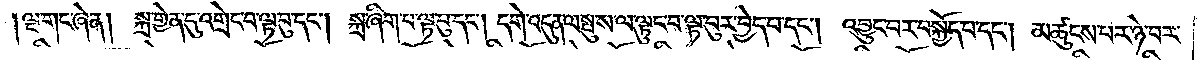ལྔ་གང་ཞེ་ན། སྐྲ་གྱེན་དུ་འགྲེང་བ་ལྟ་བུ་དང༌། སྐྲ་ཞིག་པ་ལྟ་བུ་དང༌། དགེ་འདུན་ལ་སྤུ་ས་ལ་ལྟུང་བ་ལྟ་བུར་བྱེད་པ་དང༌། འབྱུང་བར་བསྐྱོད་པ་དང༌། མཚུངས་པར་ཉེ་བར་
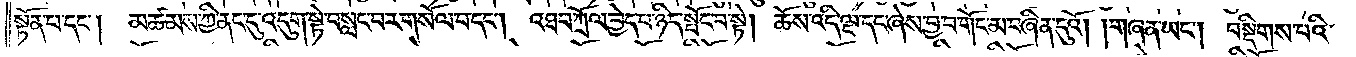སྟོན་པ་དང༌། མཚམས་ཀྱི་ནང་དུ་འདུག་སྟེ་བསླང་བར་གསོལ་བ་དང༌། འཐབ་ཀྲོལ་བྱེད་པ་ཉིད་སྤོང་བ་སྟེ། ཆོས་འདི་ལྔ་དང་ཞེས་བྱ་བ་གོང་མ་བཞིན་དུའོ། །གཞན་ཡང༌། བསྡིགས་པའི་
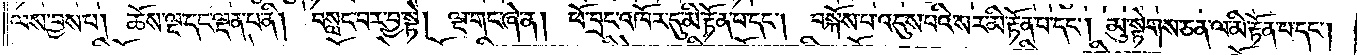ལས་བྱས་པ། ཆོས་ལྔ་དང་ལྡན་པ་ནི། བསླང་བར་བྱ་སྟེ། ལྔ་གང་ཞེ་ན། ཕོ་བྲང་འཁོར་དུ་མི་རྟོན་པ་དང༌། བསྐོས་པ་འདུས་པའི་སར་མི་རྟོན་པ་དང༌། མུ་སྟེགས་ཅན་ལ་མི་རྟོན་པ་དང༌།
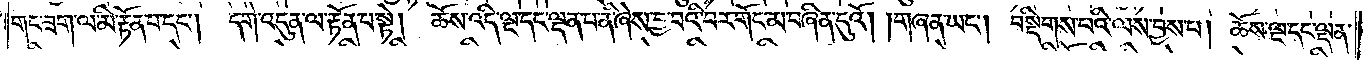གང་ཟག་ལ་མི་རྟོན་པ་དང༌། དགེ་འདུན་ལ་རྟོན་པ་སྟེ། ཆོས་འདི་ལྔ་དང་ལྡན་པ་ནི་ཞེས་བྱ་བའི་བར་གོང་མ་བཞིན་དུའོ། །གཞན་ཡང༌། བསྡིགས་པའི་ལས་བྱས་པ། ཆོས་ལྔ་དང་ལྡན་
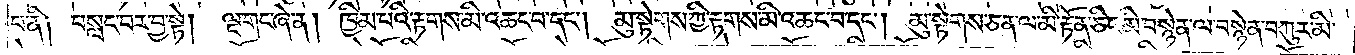པ་ནི༑ བསླང་བར་བྱ་སྟེ། ལྔ་གང་ཞེ་ན། ཁྱིམ་པའི་རྟགས་མི་འཆང་བ་དང༌། མུ་སྟེགས་ཀྱི་རྟགས་མི་འཆང་བ་དང༌། མུ་སྟེགས་ཅན་ལ་མི་རྟོན་ཅིང་མི་བསྙེན་ལ་བསྙེན་བཀུར་མི་
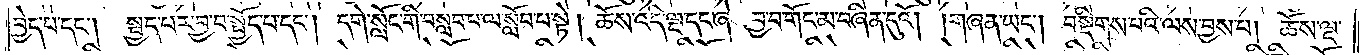བྱེད་པ་དང༌། སྤྱད་པར་བྱ་བ་སྤྱོད་པ་དང༌། དགེ་སློང་གི་བསླབ་པ་ལ་སློབ་པ་སྟེ། ཆོས་འདི་ལྔ་དང་ཞེས་བྱ་བ་གོང་མ་བཞིན་དུའོ། །གཞན་ཡང༌། བསྡིགས་པའི་ལས་བྱས་པ། ཆོས་ལྔ་
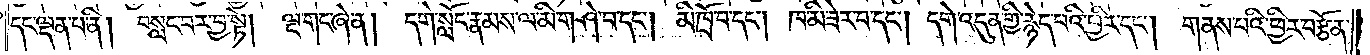དང་ལྡན་པ་ནི། བསླང་བར་བྱ་སྟེ། ལྔ་གང་ཞེ་ན། དགེ་སློང་རྣམས་ལ་མི་གཤེ་བ་དང༌། མི་ཁྲོ་བ་དང༌། ཁ་མི་ཟེར་བ་དང༌། དགེ་འདུན་གྱི་རྙེད་པའི་ཕྱིར་དང༌། གནས་པའི་ཕྱིར་བརྩོན་
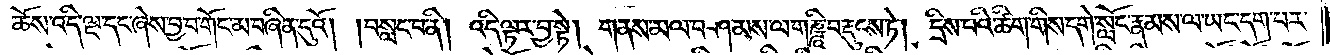ཆོས་འདི་ལྔ་དང་ཞེས་བྱ་བ་གོང་མ་བཞིན་དུའོ། །བསླང་བ་ནི། འདི་ལྟར་བྱ་སྟེ། གནས་མལ་བཤམས་ལ་གཎྜཱི་བརྡུངས་ཏེ། དྲིས་པའི་ཚིག་གིས་དགེ་སློང་རྣམས་ལ་ཡང་དག་པར་
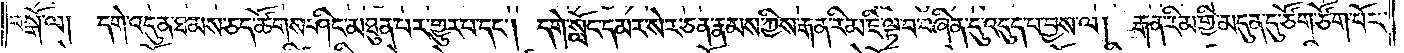བསྒོ་ལ། དགེ་འདུན་ཐམས་ཅད་ཚོགས་ཤིང་མཐུན་པར་གྱུར་པ་དང༌། དགེ་སློང་དམར་སེར་ཅན་རྣམས་ཀྱིས་རྒན་རིམ་ཇི་ལྟ་བ་བཞིན་དུ་འདུད་པ་བྱས་ལ། རྒན་རིམ་གྱི་མདུན་དུ་ཙོག་ཙོག་པོར་
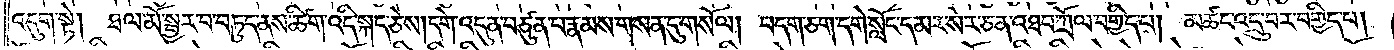འདུག་སྟེ། ཐལ་མོ་སྦྱར་བ་བཏུད་ནས་ཚིག་འདི་སྐད་ཅེས། དགེ་འདུན་བཙུན་པ་རྣམས་གསན་དུ་གསོལ། བདག་ཅག་དགེ་སློང་དམར་སེར་ཅན་འཐབ་ཀྲོལ་བགྱིད་པ། མཚང་འདྲུ་བར་བགྱིད་པ།
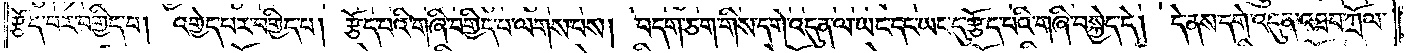རྩོད་པར་བགྱིད་པ། འགྱེད་པར་བགྱིད་པ། རྩོད་པའི་གཞི་བགྱིད་པ་ལགས་པས། བདག་ཅག་གིས་དགེ་འདུན་ལ་ཡང་དང་ཡང་དུ་རྩོད་པའི་གཞི་བསྐྱེད་དེ། དེ་ནས་དགེ་འདུན་འཐབ་ཀྲོལ་
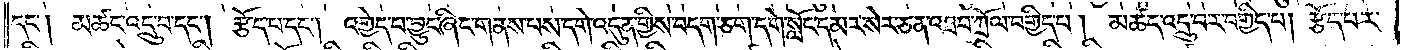དང༌། མཚང་འདྲུ་བ་དང༌། རྩོད་པ་དང༌། འགྱེད་པ་བྱུང་ཞིང་གནས་པས་དགེ་འདུན་གྱིས་བདག་ཅག་དགེ་སློང་དམར་སེར་ཅན་འཐབ་ཀྲོལ་བགྱིད་པ། མཚང་འདྲུ་བར་བགྱིད་པ། རྩོད་པར་
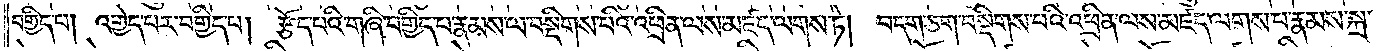བགྱིད་པ། འགྱེད་པར་བགྱིད་པ། རྩོད་པའི་གཞི་བགྱིད་པ་རྣམས་ལ་བསྡིགས་པའི་འཕྲིན་ལས་མཛད་ལགས་ཏེ། བདག་ཅག་བསྡིགས་པའི་འཕྲིན་ལས་མཛད་ལགས་པ་རྣམས་སྐྲ་
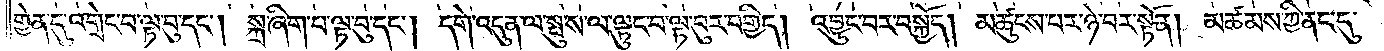གྱེན་དུ་འགྲེང་བ་ལྟ་བུ་དང༌། སྐྲ་ཞིག་པ་ལྟ་བུ་དང༌། དགེ་འདུན་ལ་སྤུ་ས་ལྟུང་བ་ལྟ་བུར་བགྱིད། འབྱུང་བར་བསྐྱོད། མཚུངས་པར་ཉེ་བར་སྟོན། མཚམས་ཀྱི་ནང་དུ་
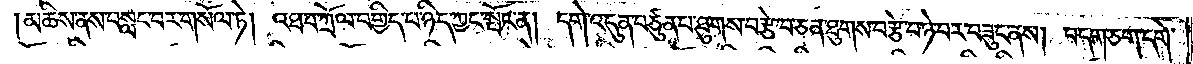མཆིས་ནས་བསླང་བར་གསོལ་ཏེ། འཐབ་ཀྲོལ་བགྱིད་པ་ཉིད་ཀྱང་སྤོང་ན། དགེ་འདུན་བཙུན་པ་ཐུགས་བརྩེ་བ་ཅན་ཐུགས་བརྩེ་བ་ཉེ་བར་བཟུང་ནས། བདག་ཅག་དགེ་
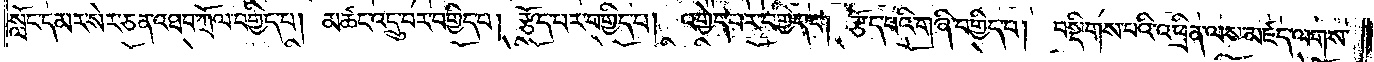སློང་དམར་སེར་ཅན་འཐབ་ཀྲོལ་བགྱིད་པ། མཚང་འདྲུ་བར་བགྱིད་པ། རྩོད་པར་བགྱིད་པ། འགྱེད་པར་བགྱིད་པ། རྩོད་པའི་གཞི་བགྱིད་པ། བསྡིགས་པའི་འཕྲིན་ལས་མཛད་ལགས་
